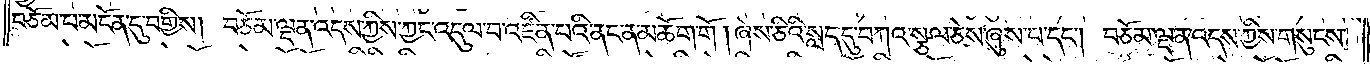བཅོམ་པ་མངོན་དུ་བགྱིས། བཅོམ་ལྡན་འདས་ཀྱིས་ཀྱང་འདུལ་བ་འཛིན་པའི་ནང་ན་མཆོག་གོ །ཞེས་ཅིའི་སླད་དུ་བཀའ་སྩལ་ཅེས་ཞུས་པ་དང༌། བཅོམ་ལྡན་འདས་ཀྱིས་གསུངས་
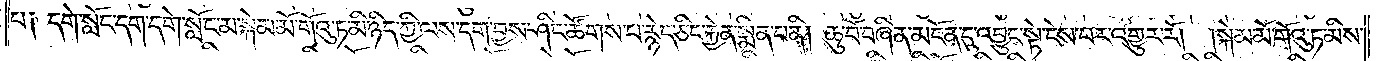པ༑ དགེ་སློང་དག་དགེ་སློང་མ་སྐེམ་མོ་གོའུ་ཏ་མི་ཉིད་ཀྱི་ལས་དག་བྱས་ཤིང་ཚོགས་པ་རྙེད་ཅིང་རྐྱེན་སྨིན་པ་ནི། ཆུ་བོ་བཞིན་མངོན་དུ་འབྱུང་སྟེ་ངེས་པར་འགྱུར་རོ། །སྐེམ་མོ་གོའུ་ཏ་མིས་
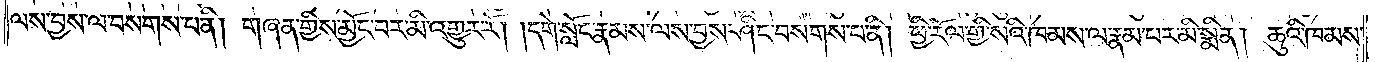ལས་བྱས་ལ་བསགས་པ་ནི། གཞན་གྱིས་མྱོང་བར་མི་འགྱུར་རོ། །དགེ་སློང་རྣམས་ལས་བྱས་ཤིང་བསགས་པ་ནི། ཕྱི་རོལ་གྱི་སའི་ཁམས་ལ་རྣམས་པར་མི་སྨིན། ཆུའི་ཁམས་
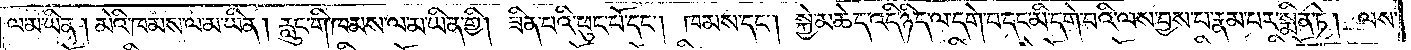ལ་མ་ཡིན། མེའི་ཁམས་ལ་མ་ཡིན། རླུང་གི་ཁམས་ལ་མ་ཡིན་གྱི། ཟིན་པའི་ཕུང་པོ་དང༌། ཁམས་དང༌། སྐྱེ་མཆེད་འདི་ཉིད་ལ་དགེ་བ་དང་མི་དགེ་བའི་ལས་བྱས་པ་རྣམ་པར་སྨིན་ཏེ། ལས་
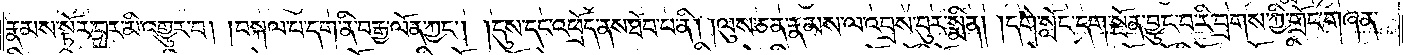རྣམས་སྟོར་བར་མི་འགྱུར་བ། །བསྐལ་པ་དག་ནི་བརྒྱ་ལོན་ཀྱང༌། །དུས་དང་འཕྲོད་ནས་ཐོབ་པ་ནི། །ལུས་ཅན་རྣམས་ལ་འབྲས་བུར་སྨིན། །དགེ་སློང་དག་སྔོན་བྱུང་བ་རི་བྲགས་ཀྱི་གྲོང་གཞན་
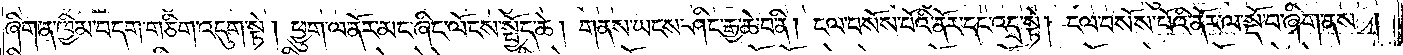ཞིག་ན་ཁྱིམ་བདག་གཅིག་འདུག་སྟེ། ཕྱུག་ལ་ནོར་མང་ཞིང་ལོངས་སྤྱོད་ཆེ། གནས་ཡངས་ཤིང་རྒྱ་ཆེ་བ་ནི། ངལ་བསོས་པོའི་ནོར་དང་འདྲ་སྟེ། ངལ་བསོས་པོའི་ནོར་ལ་སྡོ་བ་ཞིག་ནས།
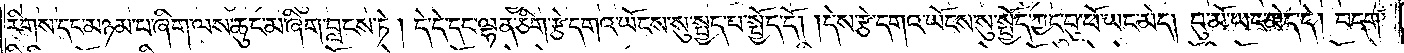རིགས་དང་མཉམ་པ་ཞིག་ལས་ཆུང་མ་ཞིག་བླངས་ཏེ། དེ་དེ་དང་ལྷན་ཅིག་རྩེ་དགའ་ཡོངས་སུ་སྤྱད་པ་སྤྱོད་དོ། །དེས་རྩེ་དགའ་ཡོངས་སུ་སྤྱོད་ཀྱང་བུ་ཕོ་ཡང་མེད། བུ་མོ་ཡང་མེད་དེ། བདག་
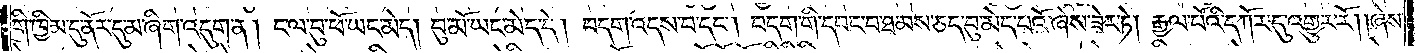གི་ཁྱིམ་དུ་ནོར་དུ་མ་ཞིག་འདུག་ན། ང་ལ་བུ་ཕོ་ཡང་མེད། བུ་མོ་ཡང་མེད་དེ། བདག་འདས་པ་དང༌། བདག་གི་དབང་བ་ཐམས་ཅད་བུ་མེད་པའོ་ཞེས་ཟེར་ཏེ། རྒྱལ་པོའི་དཀོར་དུ་འགྱུར་རོ། །ཞེས་
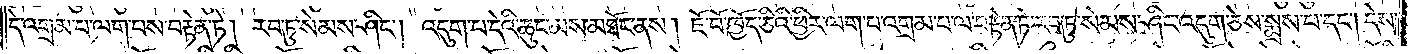དེ་འགྲམ་པ་ལག་པས་བརྟེན་ཏེ། རབ་ཏུ་སེམས་ཤིང༌། འདུག་པ་དེའི་ཆུང་མས་མཐོང་ནས། ཇོ་བོ་ཁྱོད་ཅིའི་ཕྱིར་ལག་པ་འགྲམ་པ་ལ་བརྟེན་ཏེ་རབ་ཏུ་སེམས་ཤིང་འདུག་ཅེས་སྨྲས་པ་དང༌། དེས་
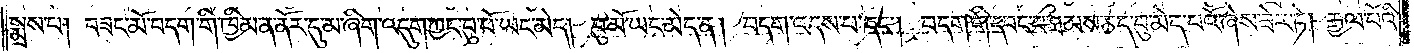སྨྲས་པ། བཟང་མོ་བདག་གི་ཁྱིམ་ན་ནོར་དུ་མ་ཞིག་འདུག་ཀྱང་བུ་ཕོ་ཡང་མེད། བུ་མོ་ཡང་མེད་ན། བདག་འདས་པ་དང༌། བདག་གི་དབང་བ་ཐམས་ཅད་བུ་མེད་པའོ་ཞེས་ཟེར་ཏེ། རྒྱལ་པོའི་
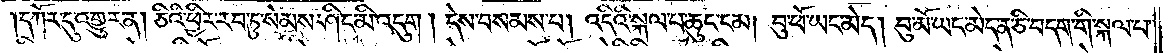དཀོར་དུ་འགྱུར་ན། ཅིའི་ཕྱིར་རབ་ཏུ་སེམས་ཤིང་མི་འདུག །དེས་བསམས་པ། འདིའི་སྐལ་པ་ཆུང་ངམ། བུ་ཕོ་ཡང་མེད། བུ་མོ་ཡང་མེད་ན་ཅི་བདག་གི་སྐལ་པ་
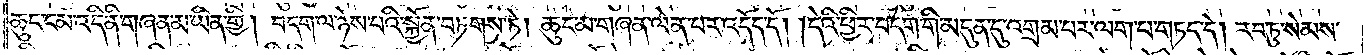ཆུང་ངམ་འདི་ནི་གཞན་མ་ཡིན་གྱི། བདག་ལ་ཉེས་པའི་སྐྱོན་བཏགས་ཏེ། ཆུང་མ་གཞན་ལེན་པར་འདོད་དོ། །དེའི་ཕྱིར་བདག་གི་མདུན་དུ་འགྲམ་པར་ལག་པ་གཏད་དེ། རབ་ཏུ་སེམས་
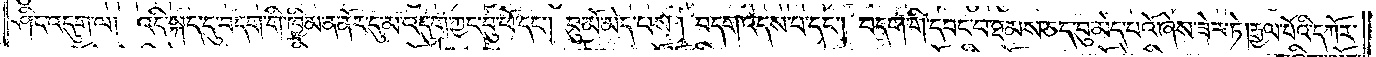ཤིང་འདུག་ལ། འདི་སྐད་དུ་བདག་གི་ཁྱིམ་ན་ནོར་དུ་མ་འདུག་ཀྱང་བུ་ཕོ་དང༌། བུ་མོ་མེད་པས། བདག་འདས་པ་དང༌། བདག་གི་དབང་བ་ཐམས་ཅད་བུ་མེད་པའོ་ཞེས་ཟེར་ཏེ། རྒྱལ་པོའི་དཀོར་
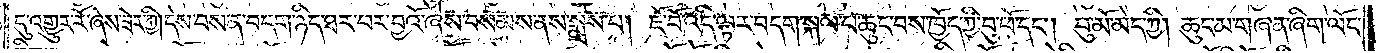དུ་འགྱུར་རོ་ཞེས་ཟེར་ཀྱི། དེས་བས་ན་བདག་ཉིད་ཐར་པར་བྱའོ་ཞེས་བསམས་ནས་སྨྲས་པ། ཇོ་བོ་འདི་ལྟར་བདག་སྐལ་པ་ཆུང་བས་ཁྱོད་ཀྱི་བུ་ཕོ་དང༌། བུ་མོ་མེད་ཀྱི། ཆུང་མ་གཞན་ཞིག་ལོང་
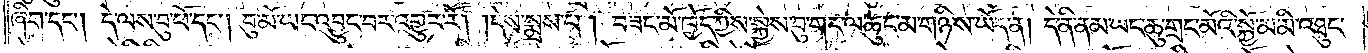ཞིག་དང༌། དེ་ལས་བུ་ཕོ་དང༌། བུ་མོ་ཡང་འབྱུང་བར་འགྱུར་རོ། །དེས་སྨྲས་པ། བཟང་མོ་ཁྱོད་ཀྱིས་སྐྱེས་བུ་གང་ལ་ཆུང་མ་གཉིས་ཡོད་ན། དེ་ནི་ནམ་ཡང་ཆུ་གྲང་མོའི་སྐྱོ་མ་མི་འཐུང་
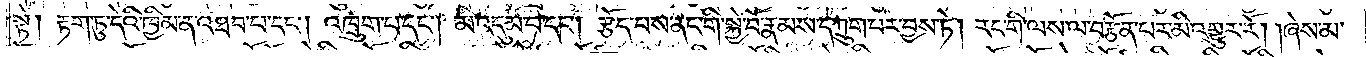སྟེ། རྟག་ཏུ་དེའི་ཁྱིམ་ན་འཐབ་པ་དང༌། འཁྲུག་པ་དང༌། མི་འདུམ་པ་དང༌། རྩོད་པས་ནང་གི་སྐྱེ་བོ་རྣམས་དཀྲུག་པར་བྱས་ཏེ། རང་གི་ལས་ལ་བརྩོན་པར་མི་འགྱུར་རོ། །ཞེས་མ་
